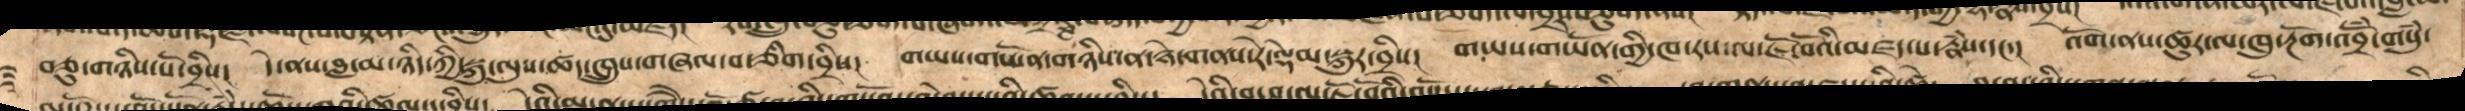བཅུ་གཉིས་པོ་བྲིས།  དེ་ནས་བླ་མ་ཉིད་ཀྱི་སྐུ་ལུས་ཚད་ཁྲུས་གཞལ་བ་ཅིག་བྲིས། གཡས་གཡོན་གཉིས་ན་ཉེ་གནས་རེ་ལྡེམ་སྐུར་བྲིས། གཡས་གཡོན་གྱི་ཁ་རས་ལ་ཇོ་བོའི་མཛད་པ་རྣཾས་དང་། འོག་ན་ཚུར་ལ་ཁུ་རྔོག་འབྲོཾ་གསུཾ་
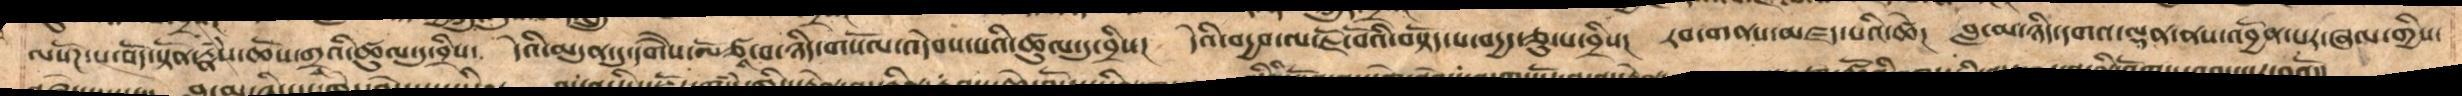ལསོཌ་པ་བོད་སྟོན་རྣཾས་ཆོས་གྲྭའི་ཚུལ་དུ་བྲིས། དེའི་མདུན་དུ་དགཻས་ལོཙཱ་བ་ཉིད་གསོལ་འདེབས་པའི་ཚུལ་དུ་བྲིས། དེའི་བདྱབ་ལ་ཇོ་བོའི་བསྟོད་པ་བདྱད་ཅུ་པ་བྲིས། རབ་གནས་མཛད་པའི་ཚེ། བླ་མ་ཉིད་དགའ་ལྡན་ནས་འབྱོན་པར་ཞལ་གྱིས་
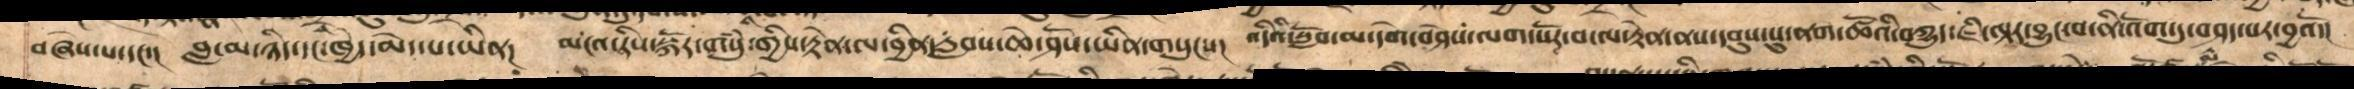བཞེས་པ་དང་།    བླ་མ་ཉིད་དང་ཁྱད་མེད་པ་ཡིན།   མངའ་རིས་སྐོར་གསུཾ་གྱིས་རྟེན་ལ་བྱིན་རླབས་ཆེ་ཤོས་ཡིན་གསུངས།   འདིའི་སློབ་མ་དགེ་བཤེས་ལག་སོར་བ་ལ་རྟེན་ནས་དབུས་སུ་ནག་ཚོའི་བཀྱུད་ཇི་ལྟར་བྱུང་བ་ནི་འོག་ཏུ་བཤད་པར་བྱའོ་།
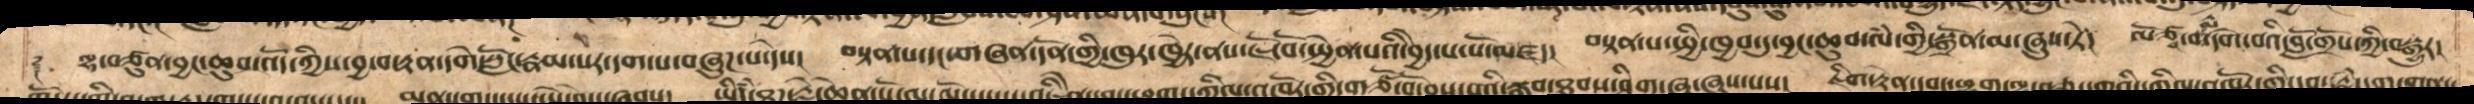ལྷ་བཙུན་བྱང་ཆུབ་འོད་ཀྱིས་བྱ་བ་རྟན་དགེ་སློང་རྣམ་པར་དག་པ་བཞུཌ་པ་དེས། བསྟན་པ་དང་གཞན་དོན་གྱི་ཁུར་ཁྱེར་ནས་ཇོ་བོ་སྤྱེན་པའི་བྱེད་པ་པོ་མཛད། བསྟན་པ་སྤྱི་ཁྱབ་དུ་བྱང་ཆུབ་ལཾ་གྱི་སྒྲོན་མ་ཞུས་ཏེ། ལོཙྪ་བ་རྨ་དགེ་བའི་བློ་གྲོས་ཀྱི་བསྒྱུར།
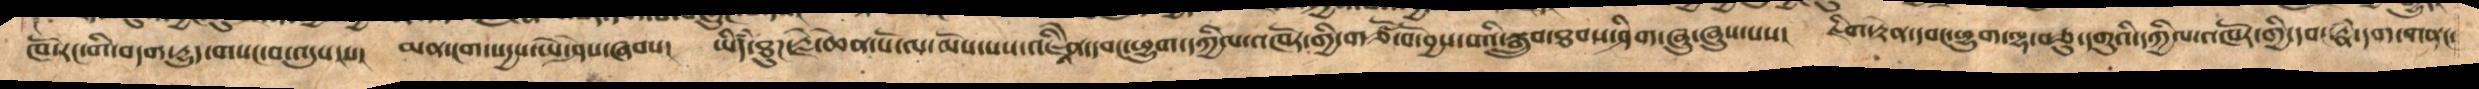ཁོ་རང་གི་བདག་དྱུད་གསང་བ་འདུས་པ།   མན་ངག་སདྱསཡེ་ཤེས་ཞབས།   ཡིདཾ་ཐུཌ་རྗེ་ཆེན་པོ་ལ་མོས་པས་འཇྟིནེ་དབང་ཕྱུག་དཀྱིལ་འཁོར་གྱི་གཙོ་བོ་བྱས་པའི་སྒྲུབ་ཐབས་ཤིག་ཞུ་ཞུས་པས།  ཇིག་རྟེན་དབང་ཕྱུག་ལྷ་བཅུ་དགུའི་དཀྱིལ་འཁོར་གྱི་དབང་རྣཾ་དག་གནང་
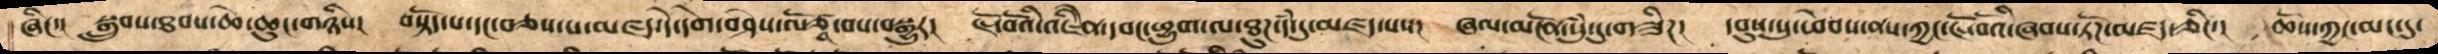ཞིང་།  སྒྲུབ་ཐབས་ཆེ་ཆུང་གཉིས།   བསྟོད་པ་དང་བཅས་པ་མཛད་དེ་དགེ་བཤེས་ལོ་ཙཱ་བས་བསྒྱུར།  ཇོ་བོའི་འཇིེན་དབང་ཕྱུག་ལ་ཐུཌ་དཾ་དུ་མཛད་པས།  ཞལ་མངོན་སུཾ་དུ་གཟིཌ།  དབུས་སུ་ཕེབས་ནས་ཀྱང་ཇོ་བོའི་ཞབས་ཏོཌ་མཛད་ཅིང་།  ཆོས་ཀྱང་མང་དུ་
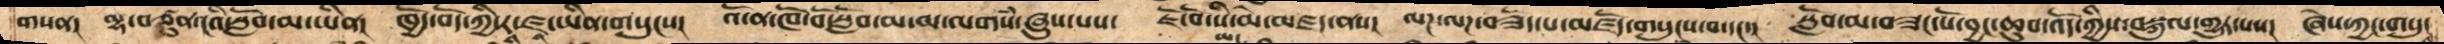གསན།  ལྷ་བཙུན་ངའི་སློབ་མ་ཡིན།  ཁྱོད་བོད་ཀྱི་རཱ་ཛཱ་ཡིན་གསུངས།   འོ་ན་ཁོ་བོ་སློབ་མ་མ་ལགསཾ་ཞུས་པས།  ཇོ་བོ་སི་མེ་མཛད་ནས།  ལཌ་ལཌ་བཟོད་པ་མཛོད་གསུངས་བ་དང་།   སློབ་མ་བཟང་པོ་བྱང་ཆུབ་འོད་ཀྱིས་བསྐུལ་གྱུར་པས།  ཞེས་ཀྱང་གསུང
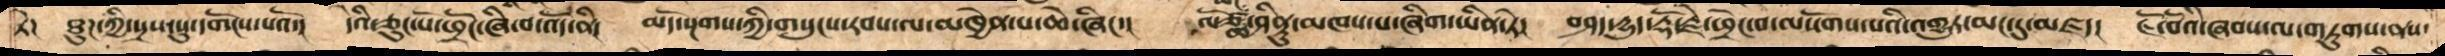ཏེ།   ཐུཌ་ཀྱི་སྲས་སུ་དགོངས་པའོ།    དེའི་ཅུང་པོ་ཕྲོང་ཞི་བ་འོད་ནི།   མདོ་སྔགས་ཀྱི་གསུངས་རབས་ལ་མཁྱེན་པ་ཆེ་ཞིང་།  ལོཙྪ་ཤིནྟུ་མཁས་པ་ཞིག་ཡིན་ཏེ།  བཤད་དྱུད་རྡོ་རྗེ་ཕྲེང་བ་ལསོགས་པའི་འགྱུར་མང་དུ་མཛད།  ཇོ་བོའི་ཞབས་ལ་གཏུགས་ནས་
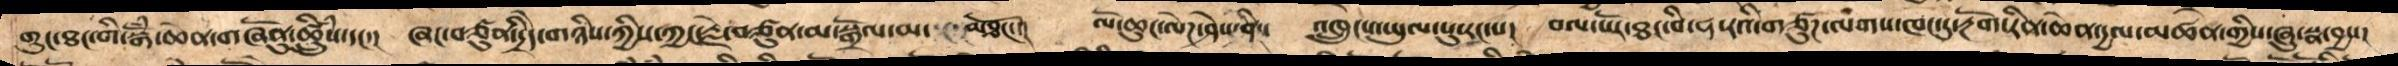གུང་ཐང་གི་སྒོཾ་ཆེན་གཞོནུ་ཚྲིུཾས་དང་།  ཞང་བཙུན་དྲིདེ་་གཉིས་ཀྱིས་ཀྱང་རྗེ་བཙུན་མ་སྒྲོལ་མ་   མཐོང།  ལོ་ཆེན་ལེཌ་ཤེས་ནི།  འཁྲུངས་ཡུལ་པུ་རང་པ།  བལ་པོར་ཐང་བི་ཧ་རའི་གཙུཌ་ལགས་ཁང་དུ་རྔོག་རིན་ཆེན་དྱལ་མཚན་གྱིས་ཞུ་སྣ་བྱས་
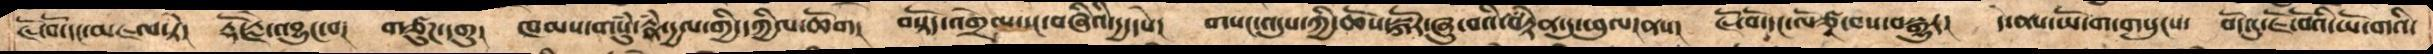ཇོ་བོ་དང་མཇལ་ཏེ།   རྡོ་རྗེ་འབྱུང་བ།   གཙུཌ་དགུ།  ཁམས་གསུཾ་རྣཾ་དྱལ་གྱི་དཀྱིལ་ཆོག  སྟོད་འགྲེལ་དང་བཞིའི་དྱ་དཔེ།   གསང་འདུས་ཀྱི་ཆོས་སྐོར་ཞུ་བའི་བརྟེན་དུ་ཕུལ་ནས།   ཇོ་བོ་དང་ལོ་ཙཱ་བས་བསྒྱུར།   དེ་ནས་ཡོ་ག་གསུངས་  བོད་དུ་ཇོ་བོའི་ཡོ་གའི་
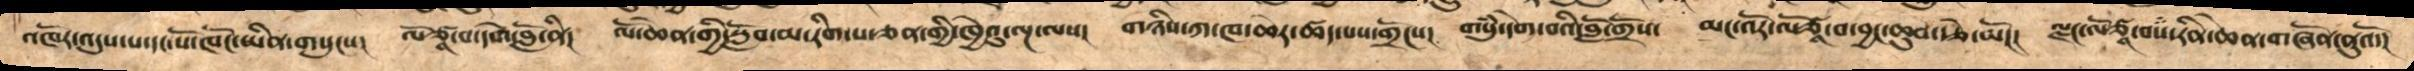འཁོར་འདུས་པ་དང་པོ་ཁོང་ཡིན་གསུངས།   ལོ་ཙཱ་བ་དགེ་བློ་ནི།   ལོ་ཆེན་གྱི་སློབ་མ་རིག་པ་ཅན་གྱི་ཁྱེའུ་ལྔ་ལས།  གཉིས་ཀ་ཁ་ཆེར་ཚད་པས་གྲོངས།  གསུཾ་དགེ་བའི་བློ་གྲོས།  མང་འོར་ལོ་ཙཱ་བ་བྱང་ཆུབ་རྩེ་མོ།།།  ལྗང་ལོཙཱ་བས་རིན་ཆེན་གཞོན་ནུའོ་།
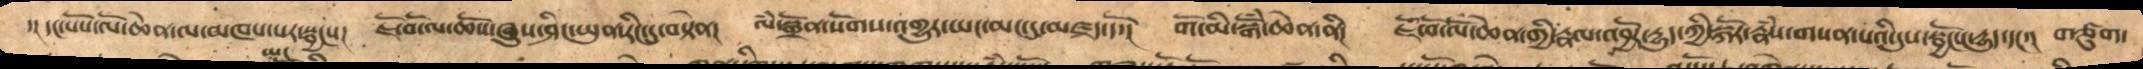དང  དང་་པོས་ལོ་ཆེན་ལ་མཁས་པར་སྦྱངས།  ཇོ་བོ་ལ་ཆོས་ཞུས་ཤིང་ཡུན་རིང་དུ་བསྟེན།  ལཾ་སྒྲོན་སོགས་འགྱུར་ཡང་མང་དུ་མཛད་དོ།  གོ་མི་སྒོཾ་ཆེན་ནི།  ཇོ་བོ་ལོ་ཆེན་གྱི་རྣལ་འབྱོར་དྱུད་ཀྱི་སྐོར་རྣཾས་གསན་པའི་དུས་སྦྱོངས་དྱུད་དང་།  གཙུག་
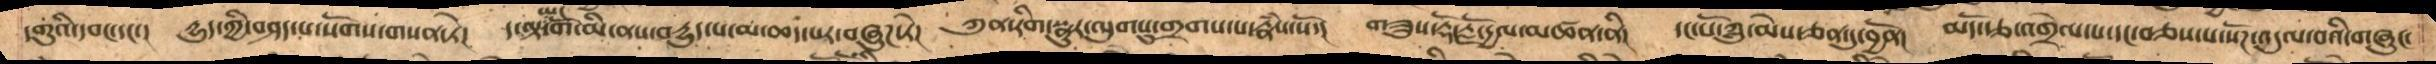དགུའི་དབང་དང་།   དྱུད་ཀྱི་བཤད་པ་སོགས་གསན་ཏེ།   ད་ལྟ་ཡང་གོ་མི་ནས་བདྱུད་པ་མ་ཆད་པར་བཞུཌ་ཏེ།   ཀུན་རིག་སྣུར་ལུགསུ་གྲགས་པ་རྣཾས་སོ་།   གཟུས་རྡོ་རྗེ་དྱལ་མཚན་ནི།    དང་པོ་ཀླུ་མེས་ཅན་དུ་བྱོན།    མདོ་རྩ་འགྲེལ་པ་དང་བཅས་པ་སོཌ་འདུལ་བའི་གཞུང་
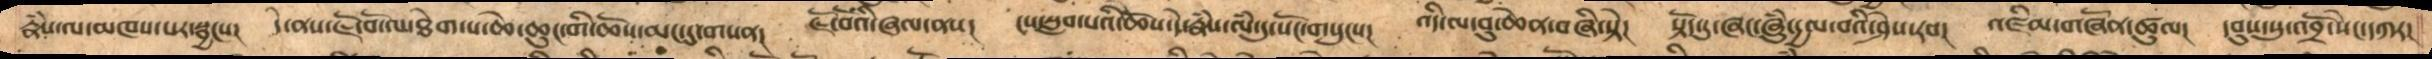རྣཾས་ལ་མཁས་པར་སྦྱངས།  དེ་ནས་ཇོ་བོ་ལ་ཐེག་པ་ཆེ་ཆུང་གི་ཆོས་མང་དུ་གསན།  ཇོ་བོའི་ཞལ་ནས།  ངས་སླབ་པའི་ཆོས་དེ་རྣཾས་ལཾ་དུ་སོང་གསུངས།  འདི་ལ་བུ་ཆེན་བཞི་སྟེ།   སྟོད་དུ་ཞང་ཞུཾ་དྱལ་བའི་ཤེས་རབ།  འཛིམ་གཞོན་ཚུལ།  དབུས་སུ་འབྲོ་སེང་དཀར།
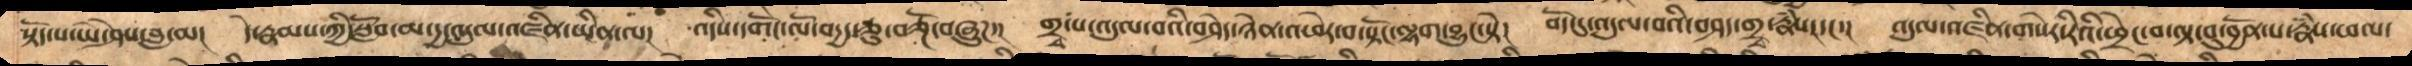སྟོད་པ་ཡེ་ཤེས་བླ་མ།   དེ་རྣམས་ཀྱི་སློབ་མ་དྱ་འདུལ་འཛིན་ཡིན་ལ།   འདིས་དགོང་ལོ་བདྱད་ཅུ་བཅྔོ་བཞུཌ་།  གྲྭ་པ་འདུལ་བའི་བཤེད་ཉེན་འཕེར་བ་སྟོང་ལྷག་བྱུང་སྟེ།   བོད་དུ་འདུལ་བའི་བཤད་གྲྭ་རྣཾས་དང་།   འདུལ་འཛིན་གསེར་རིའི་ཕྲེང་བ་ལྟ་བུ་བྱོན་པ་རྣཾས་ཕལ་
